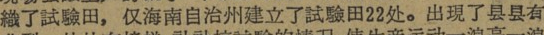織了試驗田，仅海南自治州建立了試驗田22处。出現了县县有
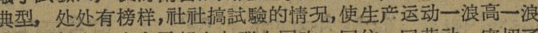典型，处处有榜样，社社搞試驗的情况，使生产运动一浪高一浪
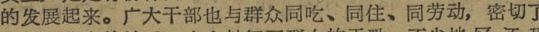的发展起来。广大干部也与群众同吃、同住、同劳动，密切了
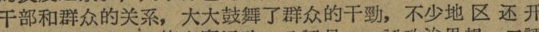干部和群众的关系，大大鼓舞了群众的干勁，不少地 区 还 开
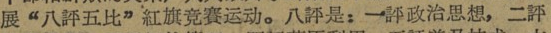展 “八評五比” 紅旗竞賽运动。八評是：一評政治思想，二評
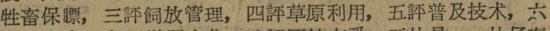牲畜保膘，三評飼放管理，四評草原利用，五評普及技术，六
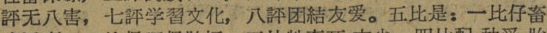評无八害，七評学習文化，八評团結友爱。五比是：一比仔畜
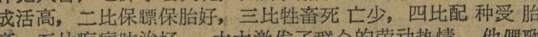成活高，二比保膘保胎好，三比牲畜死 亡少，四比配 种受 胎
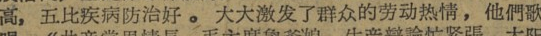高，五比疾病防治好 。大大激发了群的劳动热情，他們歌
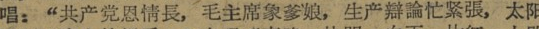唱：“共产党恩情長，毛主席象爹娘，生产辯論忙紧張，太阳
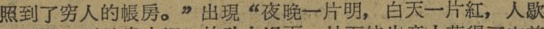照到了穷人的帳房。” 出現“夜晚一片明，白天一片紅，人歇
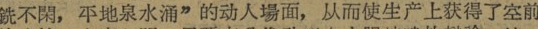銑不閑，平地泉水涌”的动人場面，从而使生产上获得了空前
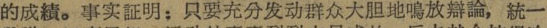的成績。事实証明：只要充分发动群众大胆地鳴放辯論，統一
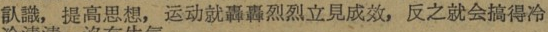认識，提高思想，运动就轟轟烈烈立見成效，反之就会搞得冷
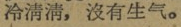冷清清，沒有生气。
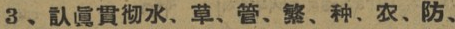3、认眞貫彻水、草、管、繁、种、农、防、
